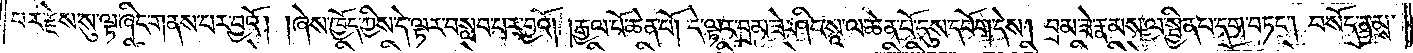པར་རྗེས་སུ་ལྟ་ཞིང་གནས་པར་བྱའོ། །ཞེས་ཁྱོད་ཀྱིས་དེ་ལྟར་བསླབ་པར་བྱའོ། །རྒྱལ་པོ་ཆེན་པོ། དེ་ལྟར་བྲམ་ཟེ་ཤིང་སཱ་ལ་ཆེན་པོ་དུས་དཔོག་དེས། བྲམ་ཟེ་རྣམས་ལ་སྦྱིན་པ་དག་བཏང༌། བསོད་ནམས་
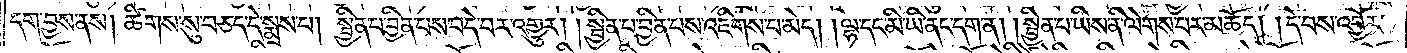དག་བྱས་ནས། ཚིགས་སུ་བཅད་དེ་སྨྲས་པ། སྦྱིན་པ་བྱིན་པས་བདེ་བར་འགྱུར། །སྦྱིན་པ་བྱིན་པས་འཇིགས་པ་མེད། །ལྷ་དང་མི་ཡི་ནང་དག་ན། །སྦྱིན་པ་ཡིས་ནི་ལེགས་པར་མཆོད། །དེ་བས་འབྱོར་
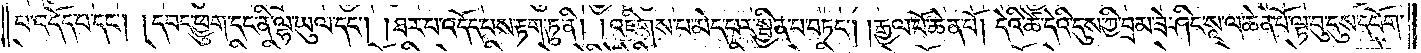པ་འདོད་པ་དང༌། །དབང་ཕྱུག་དང་ནི་ལྷ་ཡུལ་དང༌། །ཐར་པ་འདོད་པས་རྟག་ཏུ་ནི། །འཇིགས་པ་མེད་པར་སྦྱིན་པ་བཏང༌། །རྒྱལ་པོ་ཆེན་པོ། དེའི་ཚེ་དེའི་དུས་ཀྱི་བྲམ་ཟེ་ཤིང་སཱ་ལ་ཆེན་པོ་ལྟ་བུ་དུས་དཔོག་
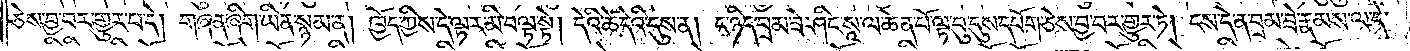ཅེས་བྱ་བར་གྱུར་པ་དེ། གཞན་ཞིག་ཡིན་སྙམ་ན། ཁྱོད་ཀྱིས་དེ་ལྟར་མི་བལྟ་སྟེ། དེའི་ཚེ་དེའི་དུས་ན། ང་ཉིད་བྲམ་ཟེ་ཤིང་སཱ་ལ་ཆེན་པོ་ལྟ་བུ་དུས་དཔོག་ཅེས་བྱ་བར་གྱུར་ཏེ། ངས་དེ་ན་བྲམ་ཟེ་རྣམས་ལ་དེ་
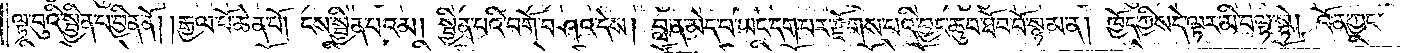ལྟ་བུའི་སྦྱིན་པ་བྱིན་ནོ། །རྒྱལ་པོ་ཆེན་པོ། ངས་སྦྱིན་པའམ། སྦྱིན་པའི་བགོ་བཤའ་དེས། བླ་ན་མེད་པ་ཡང་དག་པར་རྫོགས་པའི་བྱང་ཆུབ་ཐོབ་བོ་སྙམ་ན། ཁྱོད་ཀྱིས་དེ་ལྟར་མི་བལྟ་སྟེ། འོན་ཀྱང་
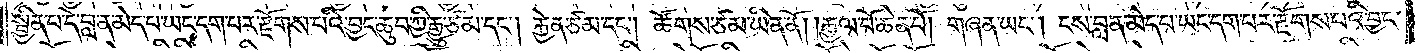སྦྱིན་པ་དེ་བླ་ན་མེད་པ་ཡང་དག་པར་རྫོགས་པའི་བྱང་ཆུབ་ཀྱི་རྒྱུ་ཙམ་དང༌། རྐྱེན་ཙམ་དང༌། ཚོགས་ཙམ་ཡིན་ནོ།    །རྒྱལ་པོ་ཆེན་པོ། གཞན་ཡང༌། ངས་བླ་ན་མེད་པ་ཡང་དག་པར་རྫོགས་པའི་བྱང་
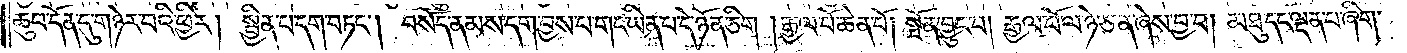ཆུབ་དོན་དུ་གཉེར་བའི་ཕྱིར། སྦྱིན་པ་དག་བཏང༌། བསོད་ནམས་དག་བྱས་པ་གང་ཡིན་པ་དེ་ཉོན་ཅིག །རྒྱལ་པོ་ཆེན་པོ། སྔོན་བྱུང་བ། རྒྱལ་པོ་ལ་ཉེ་ཅན་ཞེས་བྱ་བ། མཐུ་དང་ལྡན་པ་ཞིག་
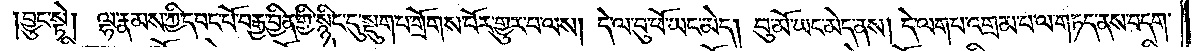བྱུང་སྟེ། ལྷ་རྣམས་ཀྱི་དབང་པོ་བརྒྱ་བྱིན་གྱི་སྙིང་དུ་སྡུག་པ་གྲོགས་པོར་གྱུར་པ་ལས། དེ་ལ་བུ་ཕོ་ཡང་མེད། བུ་མོ་ཡང་མེད་ནས། དེ་ལག་པ་འགྲམ་པ་ལ་གཏད་ནས་བདག
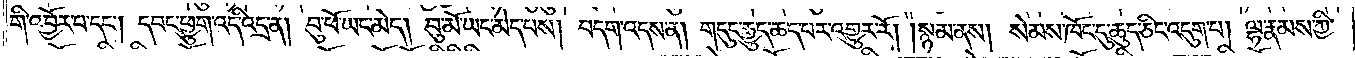གི་འབྱོར་པ་དང༌། དབང་ཕྱུག་འདི་འདྲ་ན། བུ་ཕོ་ཡང་མེད། བུ་མོ་ཡང་མེད་པས། བདག་འདས་ན། གདུང་རྒྱུད་ཆད་པར་འགྱུར་རོ། །སྙམ་ནས། སེམས་ཁོང་དུ་ཆུད་ཅིང་འདུག་པ། ལྷ་རྣམས་ཀྱི་
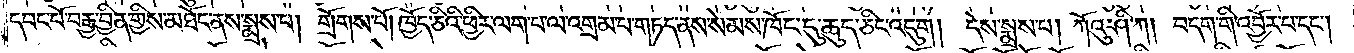དབང་པོ་བརྒྱ་བྱིན་གྱིས་མཐོང་ནས་སྨྲས་པ། གྲོགས་པོ། ཁྱོད་ཅིའི་ཕྱིར་ལག་པ་ལ་འགྲམ་པ་གཏད་ནས་སེམས་ཁོང་དུ་ཆུད་ཅིང་འདུག། དེས་སྨྲས་པ། ཀོའུ་ཤི་ཀ། བདག་གི་འབྱོར་པ་དང༌།
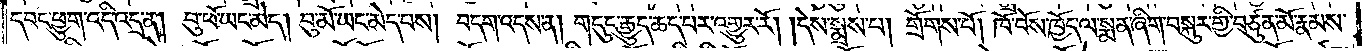དབང་ཕྱུག་འདི་འདྲ་ན། བུ་ཕོ་ཡང་མེད། བུ་མོ་ཡང་མེད་པས། བདག་འདས་ན། གདུང་རྒྱུད་ཆད་པར་འགྱུར་རོ། །དེས་སྨྲས་པ། གྲོགས་པོ། ཁོ་བོས་ཁྱོད་ལ་སྨན་ཞིག་བསྐུར་གྱི་བཙུན་མོ་རྣམས་
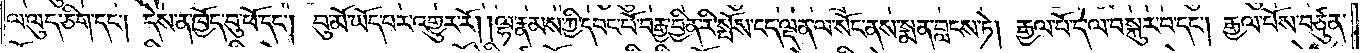ལ་ལུད་ཅིག་དང༌། དེས་ན་ཁྱོད་བུ་ཕོ་དང༌། བུ་མོ་ཡོད་པར་འགྱུར་རོ། །ལྷ་རྣམས་ཀྱི་དབང་པོ་བརྒྱ་བྱིན་རི་སྤོས་ངད་ལྡན་ལ་སོང་ནས་སྨན་བླངས་ཏེ། རྒྱལ་པོ་དེ་ལ་བསྐུར་བ་དང༌། རྒྱལ་པོས་བཙུན་
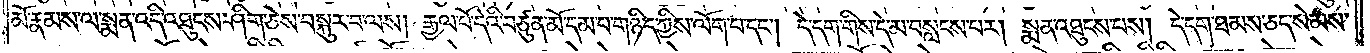མོ་རྣམས་ལ་སྨན་འདི་འཐུངས་ཤིག་ཅེས་བསྐུར་བ་ལས། རྒྱལ་པོ་དེའི་བཙུན་མོ་དམ་པ་གཉིད་ཀྱིས་ལོག་པ་དང༌། དེ་དག་གིས་དེ་མ་བསླངས་པར། སྨན་འཐུངས་པས། དེ་དག་ཐམས་ཅད་སེམས་
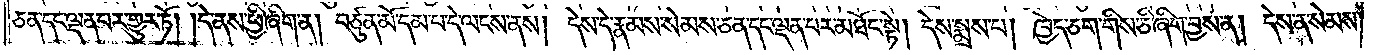ཅན་དང་ལྡན་པར་གྱུར་ཏོ། །དེ་ནས་ཕྱི་ཞིག་ན། བཙུན་མོ་དམ་པ་དེ་ལངས་ནས། དེས་དེ་རྣམས་སེམས་ཅན་དང་ལྡན་པར་མཐོང་སྟེ། དེས་སྨྲས་པ། ཁྱེད་ཅག་གིས་ཅི་ཞིག་བྱས་ན། དེས་ན་སེམས་
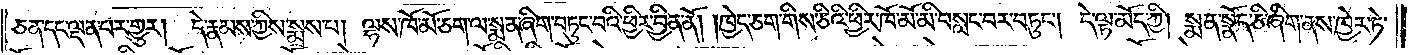ཅན་དང་ལྡན་པར་གྱུར། དེ་རྣམས་ཀྱིས་སྨྲས་པ། ལྷས་ཁོ་མོ་ཅག་ལ་སྨན་ཞིག་བཏུང་བའི་ཕྱིར་བྱིན་ནོ། །ཁྱེད་ཅག་གིས་ཅིའི་ཕྱིར་ཁོ་མོ་མི་བསླང་བར་བཏུང༌། དེ་ལྟ་མོད་ཀྱི། སྨན་སྣོད་ཅི་ཞིག་ནས་ཁྱེར་ཏེ་
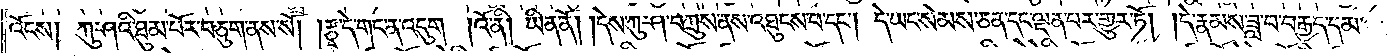འོངས། ཀུ་ཤའི་ཐུམ་པོར་བཅུག་ནས་སོ། །རྩྭ་དེ་གང་ན་འདུག །འོ་ནི། ཡིན་ནོ། །དེས་ཀུ་ཤ་བཀྲུས་ནས་འཐུངས་པ་དང༌། དེ་ཡང་སེམས་ཅན་དང་ལྡན་པར་གྱུར་ཏོ། །དེ་རྣམས་ཟླ་བ་བརྒྱད་དམ་
